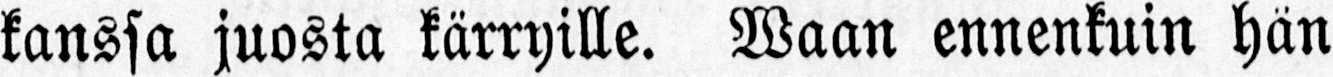kanssa juosta kärryille. Maan ennenkuin hän
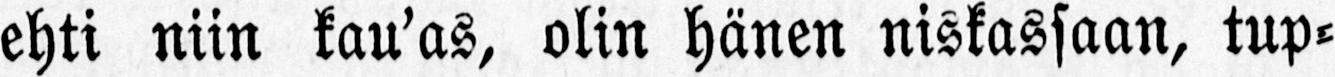ehti niin kau’as, olin hänen niskassaan, tup-
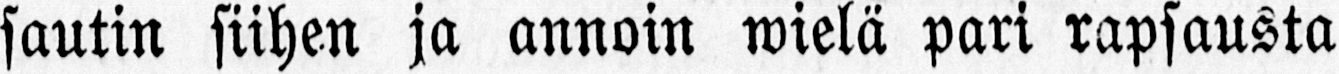sautin siihen ja annoin wielä pari rapsausta
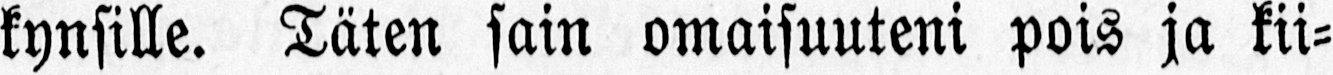kynsille. Täten sain omaisuuteni pois ja kii-
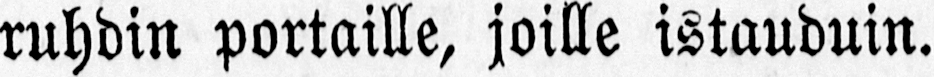ruhdin portaille, joille istauduin.
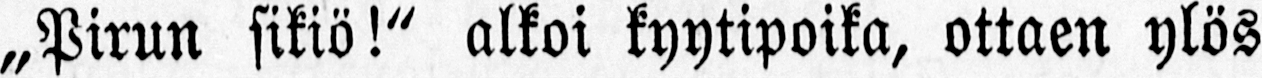„Pirun sikiö!" alkoi kyytipoika, ottaen ylös
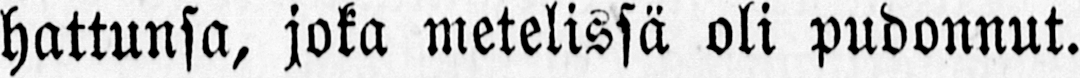hattunsa, joka metelissä oli pudonnut.
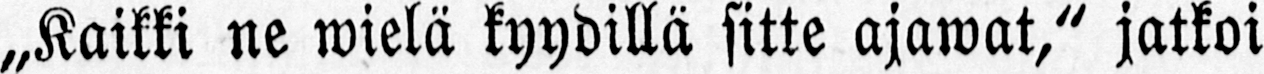„Kaikki ne wielä kyydillä sitte ajawat," jatkoi
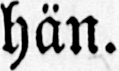hän.
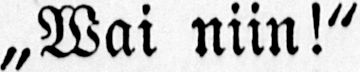„Wai niin!"
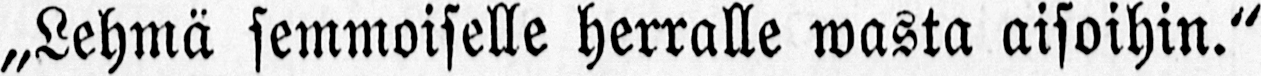„Lehmä semmoiselle herralle wasta aisoihin."
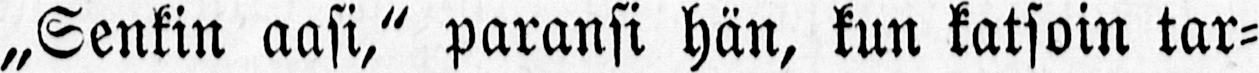„Senkin aasi," paransi hän, kun katsoin tar-
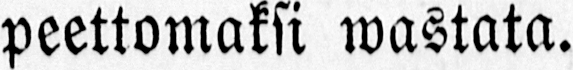peettomaksi wastata.
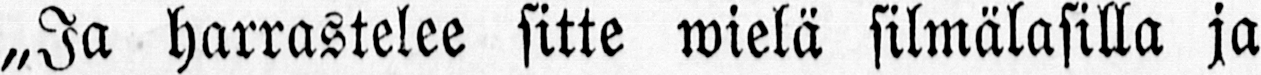„Ja harrastelee sitte wielä silmälasilla ja
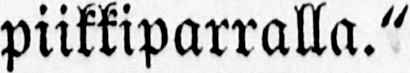piikkiparralla."
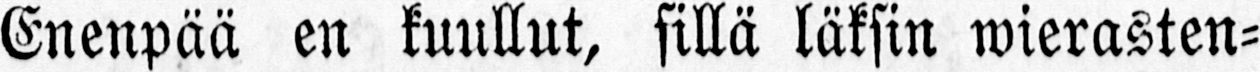Enenpää en kuullut, sillä läksin wierasten-
